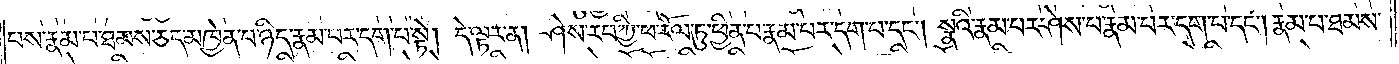པས་རྣམ་པ་ཐམས་ཅད་མཁྱེན་པ་ཉིད་རྣམ་པར་དག་པ་སྟེ། དེ་ལྟར་ན། ཤེས་རབ་ཀྱི་ཕ་རོལ་ཏུ་ཕྱིན་པ་རྣམ་པར་དག་པ་དང༌། སྣའི་རྣམ་པར་ཤེས་པ་རྣམ་པར་དག་པ་དང༌། རྣམ་པ་ཐམས་
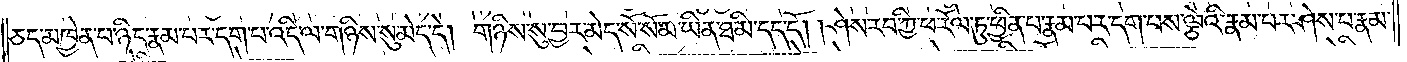ཅད་མཁྱེན་པ་ཉིད་རྣམ་པར་དག་པ་འདི་ལ་གཉིས་སུ་མེད་དེ། གཉིས་སུ་བྱར་མེད་སོ་སོ་མ་ཡིན་ཐ་མི་དད་དོ། །ཤེས་རབ་ཀྱི་ཕ་རོལ་ཏུ་ཕྱིན་པ་རྣམ་པར་དག་པས་ལྕེའི་རྣམ་པར་ཤེས་པ་རྣམ་
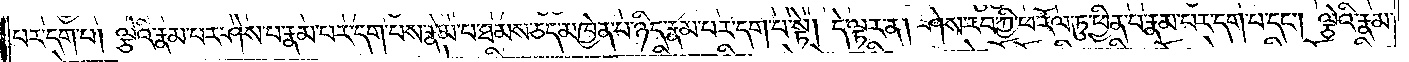པར་དག་པ། ལྕེའི་རྣམ་པར་ཤེས་པ་རྣམ་པར་དག་པས་རྣམ་པ་ཐམས་ཅད་མཁྱེན་པ་ཉིད་རྣམ་པར་དག་པ་སྟེ། དེ་ལྟར་ན། ཤེས་རབ་ཀྱི་ཕ་རོལ་ཏུ་ཕྱིན་པ་རྣམ་པར་དག་པ་དང༌། ལྕེའི་རྣམ་
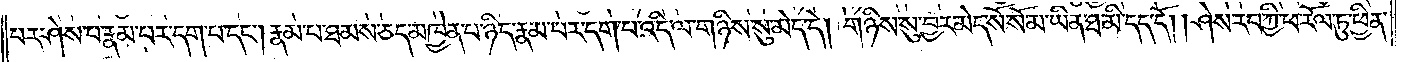པར་ཤེས་པ་རྣམ་པར་དག་པ་དང༌། རྣམ་པ་ཐམས་ཅད་མཁྱེན་པ་ཉིད་རྣམ་པར་དག་པ་འདི་ལ་གཉིས་སུ་མེད་དེ། གཉིས་སུ་བྱར་མེད་སོ་སོ་མ་ཡིན་ཐ་མི་དད་དོ། །ཤེས་རབ་ཀྱི་ཕ་རོལ་ཏུ་ཕྱིན་
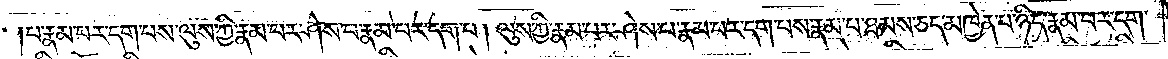པ་རྣམ་པར་དག་པས་ལུས་ཀྱི་རྣམ་པར་ཤེས་པ་རྣམ་པར་དག་པ། ལུས་ཀྱི་རྣམ་པར་ཤེས་པ་རྣམ་པར་དག་པས་རྣམ་པ་ཐམས་ཅད་མཁྱེན་པ་ཉིད་རྣམ་པར་དག་
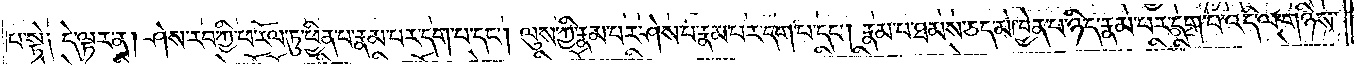པ་སྟེ། དེ་ལྟར་ན། ཤེས་རབ་ཀྱི་ཕ་རོལ་ཏུ་ཕྱིན་པ་རྣམ་པར་དག་པ་དང༌། ལུས་ཀྱི་རྣམ་པར་ཤེས་པ་རྣམ་པར་དག་པ་དང༌། རྣམ་པ་ཐམས་ཅད་མཁྱེན་པ་ཉིད་རྣམ་པར་དག་པ་འདི་ལ་གཉིས་
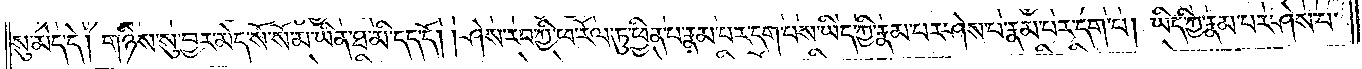སུ་མེད་དེ། གཉིས་སུ་བྱར་མེད་སོ་སོ་མ་ཡིན་ཐ་མི་དད་དོ། །ཤེས་རབ་ཀྱི་ཕ་རོལ་ཏུ་ཕྱིན་པ་རྣམ་པར་དག་པས་ཡིད་ཀྱི་རྣམ་པར་ཤེས་པ་རྣམ་པར་དག་པ། ཡིད་ཀྱི་རྣམ་པར་ཤེས་པ་
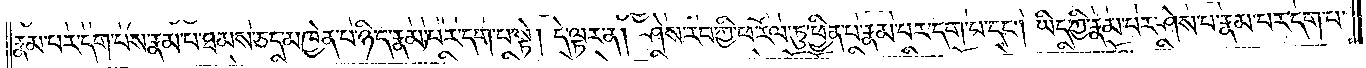རྣམ་པར་དག་པས་རྣམ་པ་ཐམས་ཅད་མཁྱེན་པ་ཉིད་རྣམ་པར་དག་པ་སྟེ། དེ་ལྟར་ན། ཤེས་རབ་ཀྱི་ཕ་རོལ་ཏུ་ཕྱིན་པ་རྣམ་པར་དག་པ་དང༌། ཡིད་ཀྱི་རྣམ་པར་ཤེས་པ་རྣམ་པར་དག་པ་
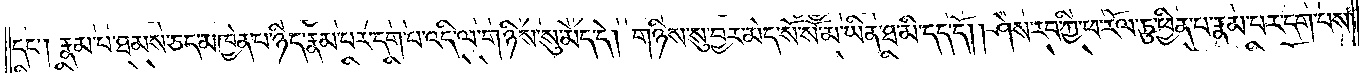དང༌། རྣམ་པ་ཐམས་ཅད་མཁྱེན་པ་ཉིད་རྣམ་པར་དག་པ་འདི་ལ་གཉིས་སུ་མེད་དེ། གཉིས་སུ་བྱར་མེད་སོ་སོ་མ་ཡིན་ཐ་མི་དད་དོ། །ཤེས་རབ་ཀྱི་ཕ་རོལ་ཏུ་ཕྱིན་པ་རྣམ་པར་དག་པས་
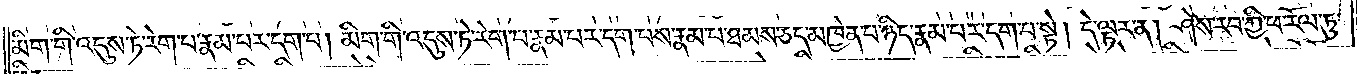མིག་གི་འདུས་ཏེ་རེག་པ་རྣམ་པར་དག་པ། མིག་གི་འདུས་ཏེ་རེག་པ་རྣམ་པར་དག་པས་རྣམ་པ་ཐམས་ཅད་མཁྱེན་པ་ཉིད་རྣམ་པར་དག་པ་སྟེ། དེ་ལྟར་ན། ཤེས་རབ་ཀྱི་ཕ་རོལ་ཏུ་
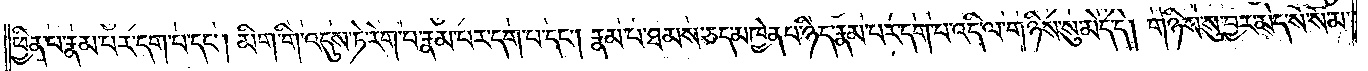ཕྱིན་པ་རྣམ་པར་དག་པ་དང༌། མིག་གི་འདུས་ཏེ་རེག་པ་རྣམ་པར་དག་པ་དང༌། རྣམ་པ་ཐམས་ཅད་མཁྱེན་པ་ཉིད་རྣམ་པར་དག་པ་འདི་ལ་གཉིས་སུ་མེད་དེ། གཉིས་སུ་བྱར་མེད་སོ་སོ་མ་
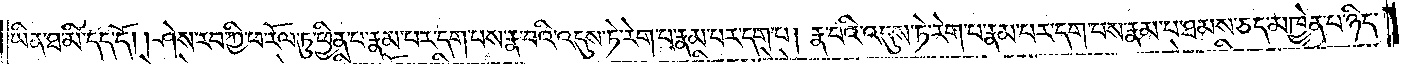ཡིན་ཐ་མི་དད་དོ། །ཤེས་རབ་ཀྱི་ཕ་རོལ་ཏུ་ཕྱིན་པ་རྣམ་པར་དག་པས་རྣ་བའི་འདུས་ཏེ་རེག་པ་རྣམ་པར་དག་པ། རྣ་བའི་འདུས་ཏེ་རེག་པ་རྣམ་པར་དག་པས་རྣམ་པ་ཐམས་ཅད་མཁྱེན་པ་ཉིད་
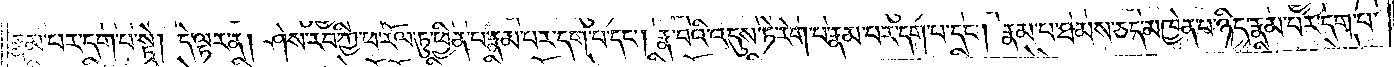རྣམ་པར་དག་པ་སྟེ། དེ་ལྟར་ན། ཤེས་རབ་ཀྱི་ཕ་རོལ་ཏུ་ཕྱིན་པ་རྣམ་པར་དག་པ་དང༌། རྣ་བའི་འདུས་ཏེ་རེག་པ་རྣམ་པར་དག་པ་དང༌། རྣམ་པ་ཐམས་ཅད་མཁྱེན་པ་ཉིད་རྣམ་པར་དག་པ་
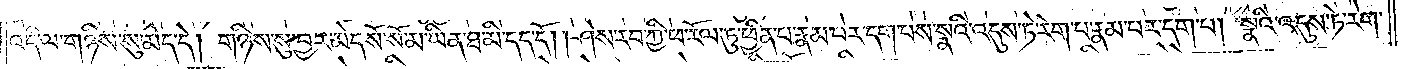འདི་ལ་གཉིས་སུ་མེད་དེ། གཉིས་སུ་བྱར་མེད་སོ་སོ་མ་ཡིན་ཐ་མི་དད་དོ། །ཤེས་རབ་ཀྱི་ཕ་རོལ་ཏུ་ཕྱིན་པ་རྣམ་པར་དག་པས་སྣའི་འདུས་ཏེ་རེག་པ་རྣམ་པར་དག་པ། སྣའི་འདུས་ཏེ་རེག་
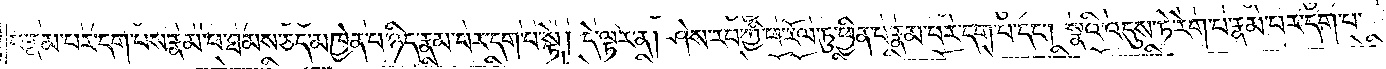པ་རྣམ་པར་དག་པས་རྣམ་པ་ཐམས་ཅད་མཁྱེན་པ་ཉིད་རྣམ་པར་དག་པ་སྟེ། དེ་ལྟར་ན། ཤེས་རབ་ཀྱི་ཕ་རོལ་ཏུ་ཕྱིན་པ་རྣམ་པར་དག་པ་དང༌། སྣའི་འདུས་ཏེ་རེག་པ་རྣམ་པར་དག་པ་
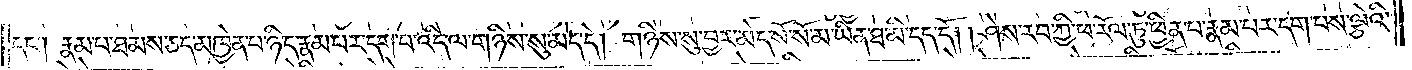དང༌། རྣམ་པ་ཐམས་ཅད་མཁྱེན་པ་ཉིད་རྣམ་པར་དག་པ་འདི་ལ་གཉིས་སུ་མེད་དེ། གཉིས་སུ་བྱར་མེད་སོ་སོ་མ་ཡིན་ཐ་མི་དད་དོ། །ཤེས་རབ་ཀྱི་ཕ་རོལ་ཏུ་ཕྱིན་པ་རྣམ་པར་དག་པས་ལྕེའི་
